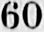60
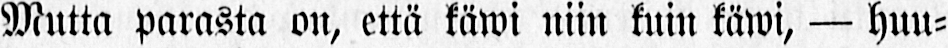Mutta parasta on, että käwi niin kuin käwi, — huu-
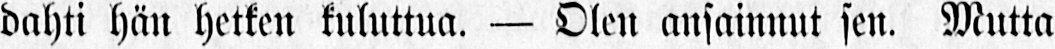dahti hän hetken kuluttua. - Olen ansainnut sen. Mutta
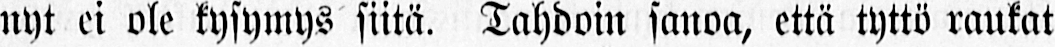nyt ei ole kysymys siitä. Tahdoin sanoa, että tyttö raukat
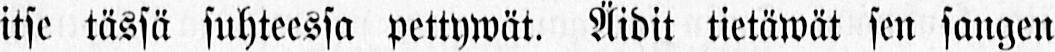itse tässä suhteessa pettywät. Äidit tietäwät sen sangen
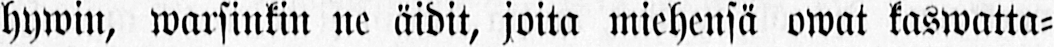hywin, warsinkin ne äidit, joita miehensä owat kaswatta-
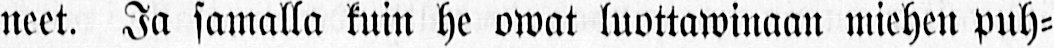neet. Ja samalla kuin he owat luottawinaan miehen puh-
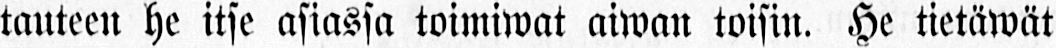tauteen he itse asiassa toimiwat aiwan toisin. He tietäwät
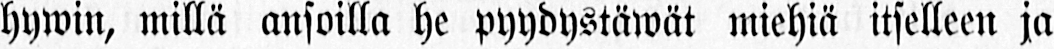hywin, millä ansoilla he pyydystäwät miehiä itselleen ja
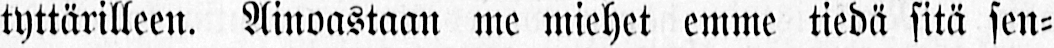tyttärilleen. Ainoastaan me miehet emme tiedä sitä sen-
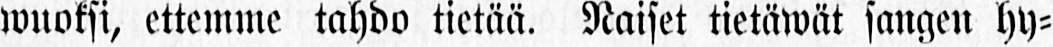wuoksi, ettemme tahdo tietää. Naiset tietäwät sangen hy-
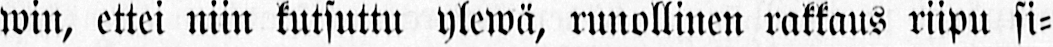win, ettei niin kutsuttu ylewä, runollinen rakkaus riipu si-
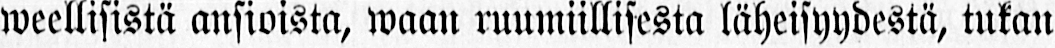weellisistä ansioista, waan ruumiillisesta läheisyydestä, tukan
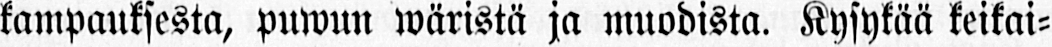kampauksesta, pnwun wäristä ja muodista. Kysykää keikai-
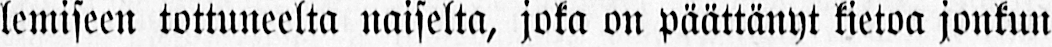lemiseen tottuneelta naiselta, joka on päättänyt kietoa jonkun
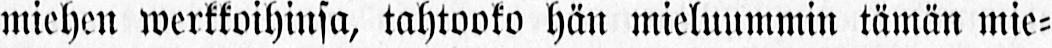miehen werkkoihinsa, tahtooko hän mieluummin tämän mie-
